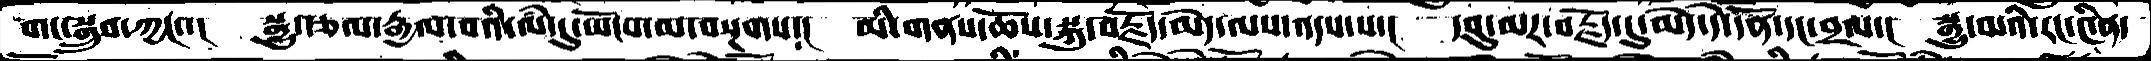གང་སྒྲུབ་ཀྱང་་།   སྒྱུ་རྩལ་རྒྱལ་བའི་ལཾ་དུ་ཡོངས་ལ་བསྔགས་།   མི་གནས་ཆོས་སྐུ་བརྗོད་མེད་ལས་འདས་པ་།   དབུ་མར་བརྗོད་དུ་མེད་དེ་དོན་དང་བྲལ་།   སྒྱུ་མའི་རང་༤ིན་
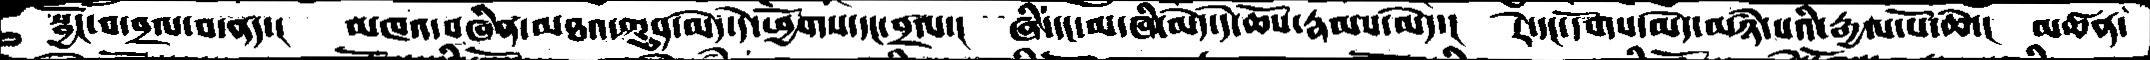སྦྱོང་བ་བྲལ་བ་ནད་།   མཁའ་བཞིན་མཐའ་ཀུན་མེད་དེ་་ཕྱོགས་དང་བྲལ་།   ཞི་དང་མ་ཞི་མེད་དེ་ཆོས་རྣམས་མེད་།   རེ་དང་དོགས་མེད་མཉཾ་པའི་རྒྱལ་པོ་ཆེེེེེེེ་།    མཚན་
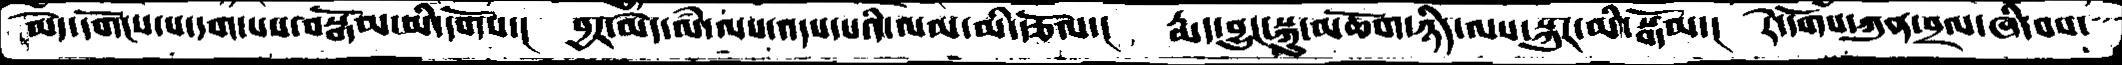མེད་དགོངས་པ་དག་པས་བསྒོམ་མི་དགོས་།    བྱར་མེེད་ལཾ་ལས་འདས་པའི་ལམ་མི་རྩོལ་།    རྨད་བྱུང་སྐུ་མཆོག་ཉིད་ལས་སྐུར་མི་སྒོམ་།    རེ་དོགས་ཀུན་བྲལ་ཞི་བས་
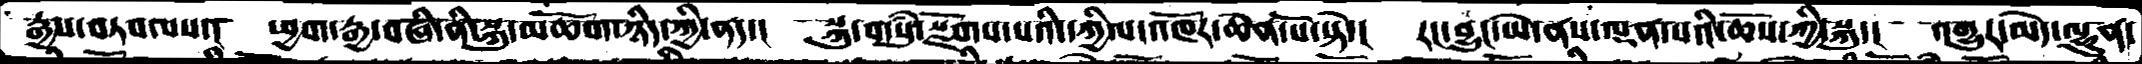རྒྱས་བཏབ་པས་།  ཕྱག་རྒྱ་བཞི་ནི་སྐུ་མཆོག་ཉིད་ཀྱི་ནད་།  སྐུ་གསུཾ་སྫོགས་པའི་དཀྱིལ་འཁོར་ཆེན་པོ་སྟེ་།  རང་བྱུང་ཡེ་ནས་ལྡན་པའི་ཆོས་ཀྱི་སྐུ་།  འགྱུར་མེད་ལྷུན་
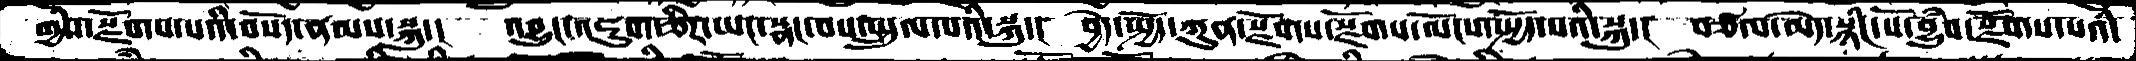གྱིས་སྫོགས་པའི་བསོད་ནམས་སྐུ་།   འབྱུང་འཇུག་ཅིར་ཡང་སྣང་བས་སྤྲུལ་པའི་སྐུ་།  བྱེད་སྤྱོད་ཀུན་སྫོགས་སྫོགས་ལོངས་སྤྱོད་པའི་སྐུ་།  བཙལ་མེད་སྙིང་པོ་བྱུཾབ་སྫོགས་པའི་
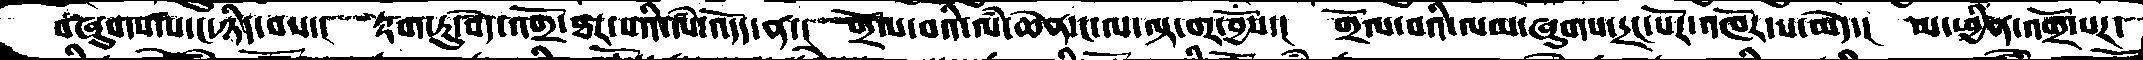བཞུགས་པ་ང་ཉིད་བས་།  རྟག་ཏུ་བདེ་འགྲོ་ཐར་པའི་ལཾ་འདོད་ན་།  གྲོལ་བའི་ལཾ་ཆེན་ང་ལ་ལྟ་བར་བྱོས་།  གྲོལ་བའི་ལམ་ཞུགས་དྲང་པོར་འཁོར་ས་མེད་།  མ་ཕྱིན་འགྲོ་པར་
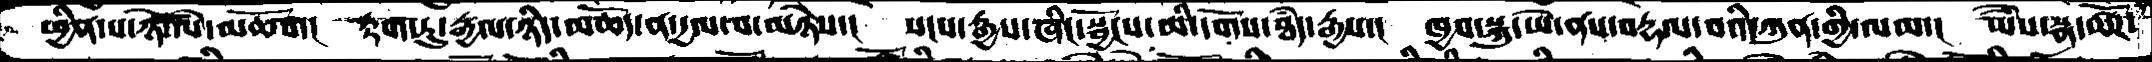ཕྱིན་པ་ཉེ་ལཾ་མཆོག།  རྟག་ཏུ་རྒྱལ་ཉིད་མཆོད་ན་དྱལ་བ་མཉེས་།  སངས་རྒྱས་ཞིང་སྦྱོངས་མི་དགོས་ཐཾད་རྒྱས་།  ཁྱབ་སྐུ་ཡེ་ནས་བརྡལ་བའི་ཀུན་གྱི་ལམ་།  ཡཻས་སྣ་ཚོཌ་
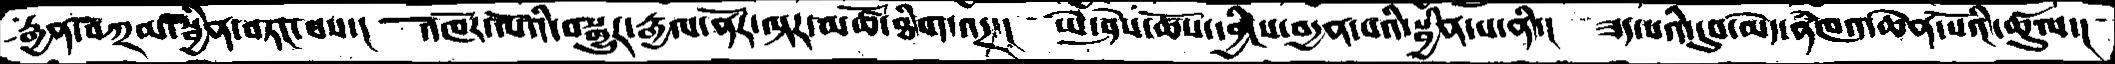རྒྱན་བཀྲམ་སྦྱིན་བཏང་པས་།  འཁོར་ལོའི་བསྒྱུར་རྒྱལ་ནོར་ལྟར་མཚོ་ཐིག་འདྲ་།  ཡེ་ཤེས་ཆོས་དབྱིངས་བདྱན་པའི་སྦྱིན་པ་ནི་།  ཟད་པའི་དུས་མེད་ནཾཁའ་ཆེན་པོའི་ཚུལ་།
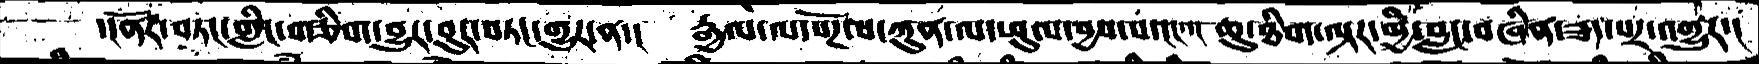་།ནོར་བཏང་གླིང་གཅིག་བྱུར་བུར་བཏང་གྱུར་ན་།  རྒྱལ་ལ་སོཌ་པ་ཀུན་ལ་ཕུལ་བྱས་པ་ངང་་།  ཆུ་ཐིག་ལྟར་གྱི་བླང་བཞིན་ཟད་པར་འགྱུར་།
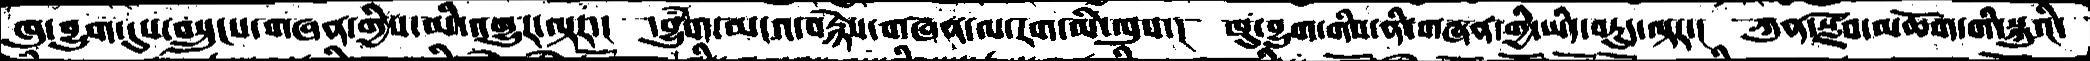ཁུ་བྱུག་དུས་བསྲུངས་གཞན་གྱིས་མི་འགྱུར་ལྟར་།  དབྱུཾག་མངའ་བརྙེས་གཞན་ལ་རག་མི་ལུས་།  ཁུ་བྱུག་གིས་ནི་གཞན་གྱི་ཡིད་བཏུད་ལྟར་།  ཀུན་སྫོབ་མཆོག་གི་སྐུའི་
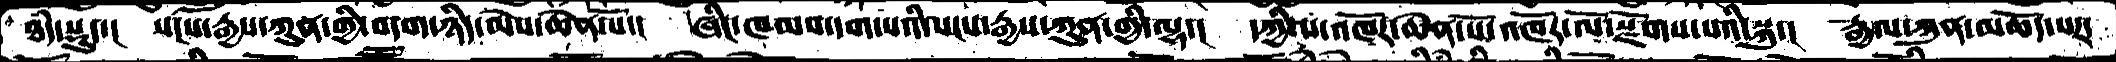ཐཾད་སྡུད་།  སངས་རྒྱས་ཀུན་གྱི་བདག་ཉིད་མེས་ཆེན་པོ་།  ཞིང་ཁམས་དག་པའི་སངས་རྒྱས་ཀུན་གྱི་ལྷ་།  དཀྱིལ་འཁོར་ཆེན་པོ་འཁོར་ལོ་སྫོགས་པའི་སྐུ་།  རྒྱལ་ཀུན་མཆོད་པར་
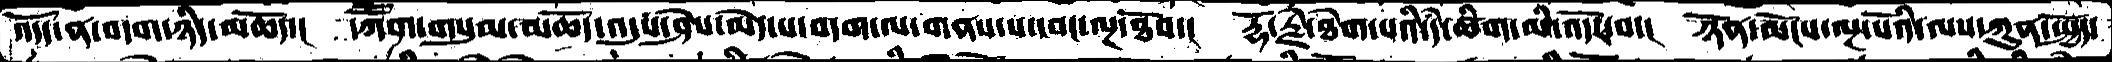འོདད་ན་བདག་ཉིད་མཆོད་།  དཀཽག་གསུམ་མཆོད་འདུས་ཤེས་མེད་པ་བདག་ལ་གནས་པ་དབང་ལྔ་ཐོབ་།  རྡོ་རྗེ་ཐེག་པའི་དཾ་ཚིག་མི་འདོར་བ་།  ཉོན་མོངས་ལྔ་པོའི་ལས་ཀུན་སྤྱོད་
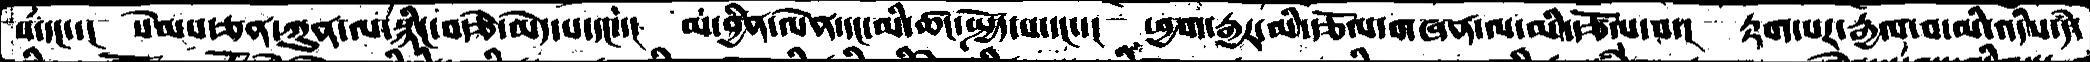ས་དང་་།  སེམས་ཅན་ཀུན་ལ་སྙིང་བརྩེ་མེད་པ་དང་་། མ་བྱིན་ལེན་དང་མི་ཚང་སྤྱོད་པ་དང་་།  ཕྱག་རྒྱར་མི་རྩོལ་གཞན་ལ་མི་རྩོལ་བ་། རྟག་པར་རྒྱལ་བ་མི་འདིས་དཾ་
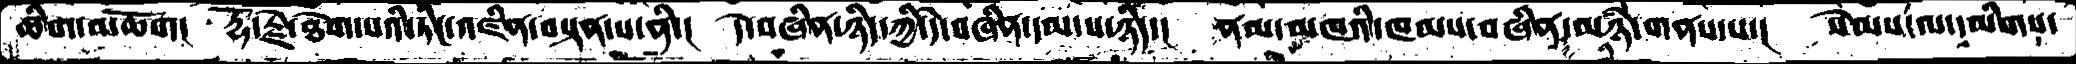ཚིག་མཆོག།  རྡོ་རྗེ་ཐེག་པའི་ཏིང་འཛིན་བསྟན་པ་ནི་།  དེ་བཞིན་ཉིད་ཀྱི་དེ་བཞིན་དམ་པ་ཉིད་།  ནམ་མཁའི་ཁམས་བཞིན་མཉཾ་གནས་པ་།  སེམས་ལ་དམིགས་
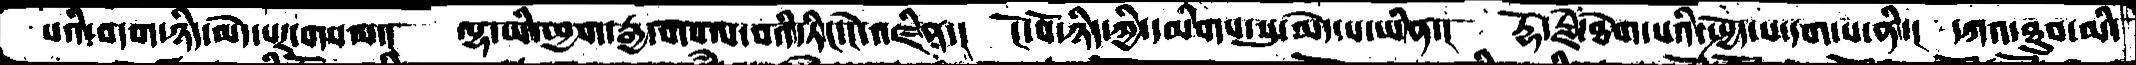པའི་བདག་ཉིད་མེད་པར་གསལ་།  ལྷ་ཡི་ཕྱག་རྒྱ་གསལ་བའི་ཏིང་ངེ་འཛིན་།  ངོ་བོ་ཉིད་ཀྱི་དམིགས་སུ་མེད་པ་ཡིན་།  རྡོ་རྗེ་ཐེག་པའི་སྤྱོད་པ་དག་པ་ནི་།  དཀའ་ཐུབ་མི་
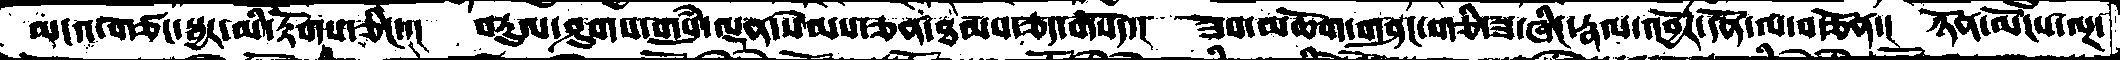མདའ་གཙང་སྦྱར་མི་རྟོགས་ཅིང་།  བཏུལ་ཤུགས་གསུཾ་ལྡན་སེམས་ཅན་ཐམས་ཅད་གསོད་།  ཟས་མཆོག་གཤང་གཅི་ཟ་ཞིང་རྣལ་འབྱོར་དོན་ལ་བརྩོན་།  ཉོན་མོངས་ལྔ་
